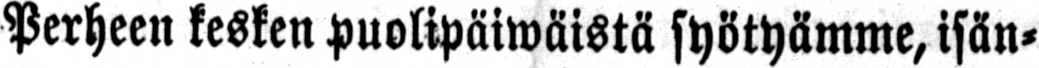Perheen kesken puolipäiwäistä syötyämme, isän-
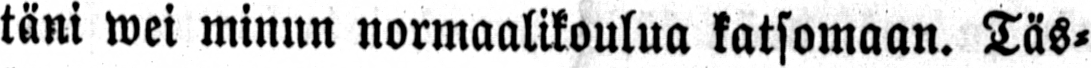täni wei minun normaalikoulua katsomaan. Täs-
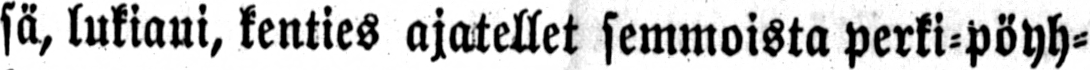sä, lukiani, kenties ajatellet semmoista perki-pöyh-
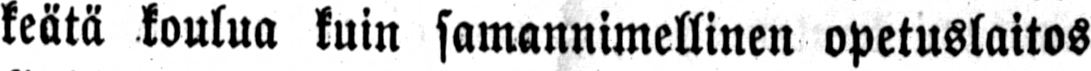keätä koulua kuin samannimellinen opetuslaitos
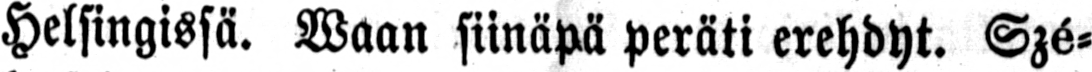Helsingissä. Waan siinäpä peräti erehdyt. Szé-
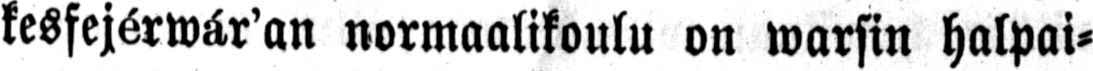kesfejérwár'an normaalikoulu on warsin halpai-
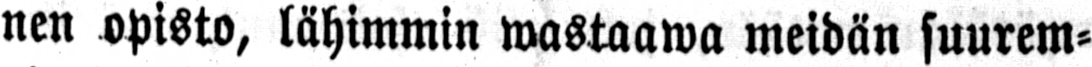nen opisto, lähimmin wastaawa meidän suurem-
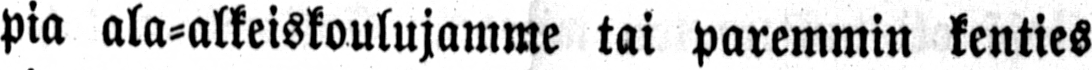pia ala-alkeiskoulujamme tai paremmin kenties
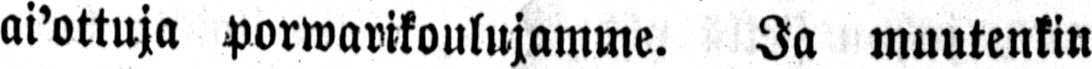ai'ottuja porwarikoulujamme. Ja muutenkin
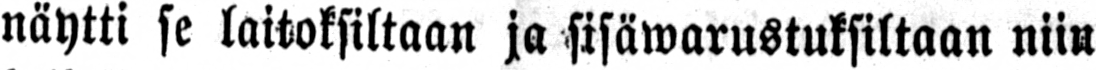näytti se laitoksiltaan ja sisäwarustuksiltaan niin
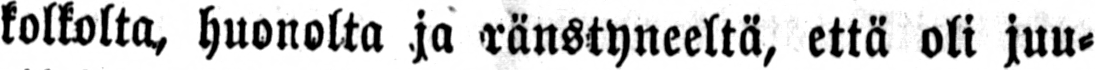kolkolta, huonolta ja ränstyneeltä, että oli juu-
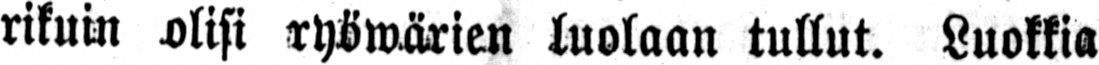rikuin olisi ryöwärien luolaan tullut. Luokkia
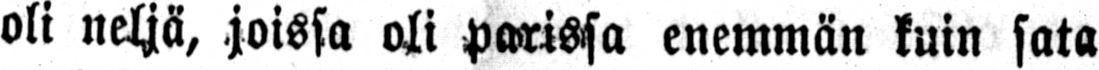oli neljä, joissa oli parissa enemmän kuin sata
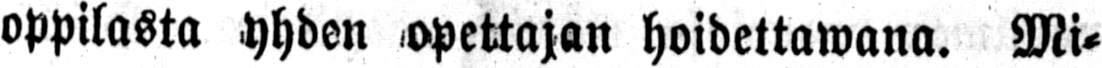oppilasta yhden opettajan hoidettawana. Mi-
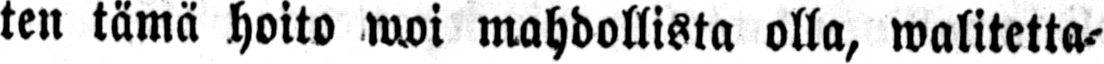ten tämä hoito woi mahdollista olla, walitetta-
